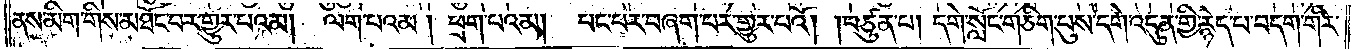ནས་མིག་གིས་མཐོང་བར་གྱུར་པའམ། ལག་པའམ། ཕྲག་པའམ། པང་པར་བཞག་པར་གྱུར་པའོ། །བཙུན་པ། དགེ་སློང་གཅིག་པུས་དགེ་འདུན་གྱི་རྙེད་པ་བདག་གིར་
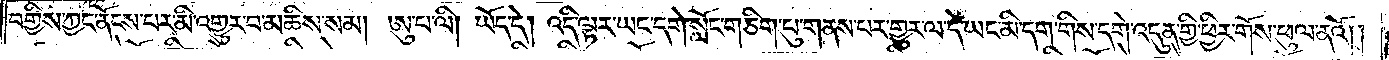བགྱིས་ཀྱང་ནོངས་པར་མི་འགྱུར་བ་མཆིས་སམ། ཨུ་པ་ལི། ཡོད་དེ། འདི་ལྟར་ཡང་དགེ་སློང་གཅིག་པུ་གནས་པར་གྱུར་ལ་དེ་ཡང་མི་དག་གིས་དགེ་འདུན་གྱི་ཕྱིར་གོས་ཕུལ་ནའོ། །
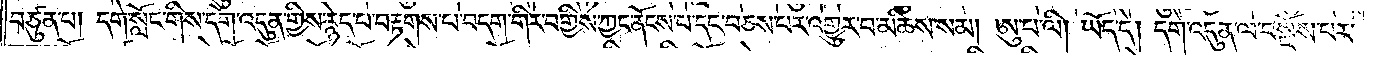བཙུན་པ། དགེ་སློང་གིས་དགེ་འདུན་གྱིས་རྙེད་པ་བརྟགས་པ་བདག་གིར་བགྱིས་ཀྱང་ནོངས་པ་དང་བཅས་པར་འགྱུར་བ་མཆིས་སམ། ཨུ་པ་ལི། ཡོད་དེ། དགེ་འདུན་ལ་བསྔོས་པར་
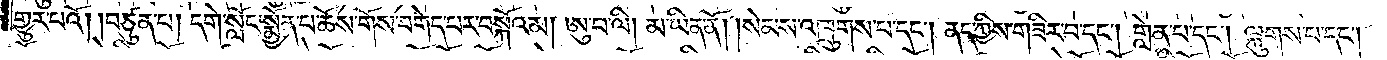གྱུར་པའོ། །བཙུན་པ། དགེ་སློང་སྨྱོན་པ་ཆོས་གོས་བགེད་པར་བསྐོའམ། ཨུ་པ་ལི། མ་ཡིན་ནོ། །སེམས་འཁྲུགས་པ་དང༌། ནད་ཀྱིས་གཟིར་བ་དང༌། གླེན་པ་དང༌། ལྐུགས་པ་དང༌།
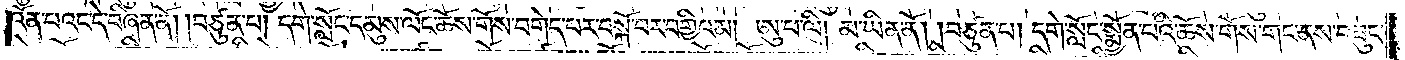འོན་པའང་དེ་བཞིན་ནོ། །བཙུན་པ། དགེ་སློང་དམུས་ལོང་ཆོས་གོས་བགེད་པར་བསྐོ་བར་བགྱིའམ། ཨུ་པ་ལི། མ་ཡིན་ནོ། །བཙུན་པ། དགེ་སློང་སྨྱོན་པའི་ཆོས་གོས་གང་ནས་བཟུང་
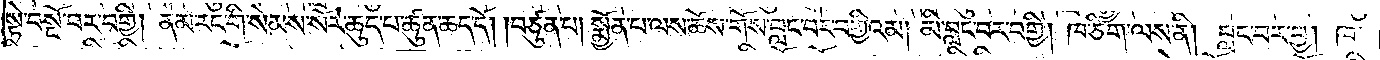སྟེ་བསྔོ་བར་བགྱི། ནམ་རང་གི་སེམས་སོར་ཆུད་པ་ཚུན་ཆད་དོ། །བཙུན་པ། སྨྱོན་པ་ལས་ཆོས་གོས་བླང་བར་བགྱིའམ། མི་བླང་བར་བགྱི། ཁ་ཅིག་ལས་ནི། བླང་བར་བྱ། ཁ་
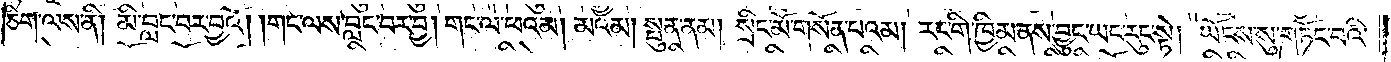ཅིག་ལས་ནི། མི་བླང་བར་བྱའོ། །གང་ལས་བླང་བར་བྱ། གང་ལ་ཕའམ། མའམ། སྤུན་ནམ། སྲིང་མོ་གསོན་པའམ། རང་གི་ཁྱིམ་ནས་བྱུང་ཡང་རུང་སྟེ། ཡོངས་སུ་གཏོང་བའི་
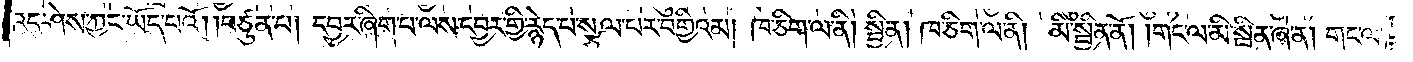འདུ་ཤེས་ཀྱང་ཡོད་པའོ། །བཙུན་པ། དབྱར་ཞིག་པ་ལས་དབྱར་གྱི་རྙེད་པ་སྩལ་པར་བགྱིའམ། ཁ་ཅིག་ལ་ནི། སྦྱིན། ཁ་ཅིག་ལ་ནི། མི་སྦྱིན་ནོ། །གང་ལ་མི་སྦྱིན་ཞེ་ན། གང་ལ་
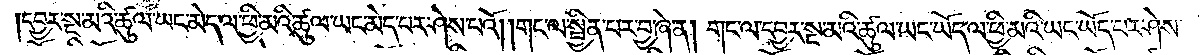།དབྱར་སྔ་མའི་ཚུལ་ཡང་མེད་ལ་ཕྱི་མའི་ཚུལ་ཡང་མེད་པར་ཤེས་པའོ། །གང་ལ་སྦྱིན་པར་བྱ་ཞེ་ན། གང་ལ་དབྱར་སྔ་མའི་ཚུལ་ཡང་ཡོད་ལ་ཕྱི་མའི་ཡང་ཡོད་པར་ཤེས་
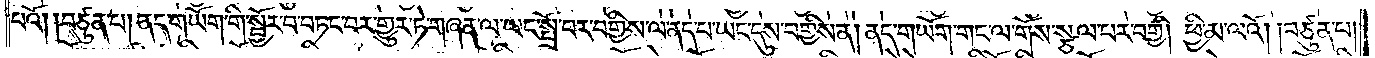པའོ། །བཙུན་པ། ནད་གཡོག་གི་སྦྱོར་བ་བཏང་བར་གྱུར་ཏེ་གཞན་ལ་ཡང་སྤྲོ་བར་བགྱིས་ལ་ནད་པ་ཡང་དུས་བགྱིས་ན། ནད་གཡོག་གང་ལ་གོས་སྩལ་པར་བགྱི། ཕྱི་མ་ལའོ། །བཙུན་པ།
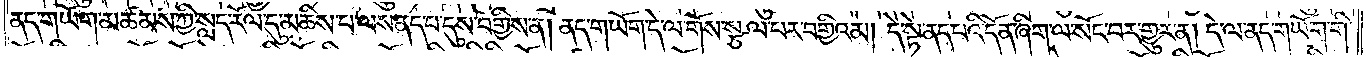ནད་གཡོག་མཚམས་ཀྱི་སླད་རོལ་དུ་མཆིས་པ་ལས་ནད་པ་དུས་བགྱིས་ན། ནད་གཡོག་དེ་ལ་གོས་སྩལ་པར་བགྱིའམ། དེ་སྟེ་ནད་པའི་དོན་ཞིག་ལ་སོང་བར་གྱུར་ན། དེ་ལ་ནད་གཡོག་གི་
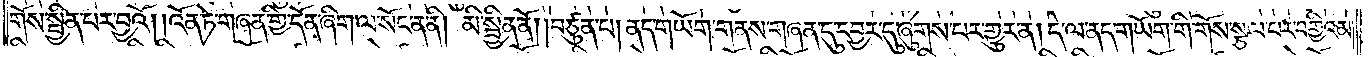གོས་སྦྱིན་པར་བྱའོ། །འོན་ཏེ་གཞན་གྱི་དོན་ཞིག་ལ་སོང་ན་ནི། མི་སྦྱིན་ནོ། །བཙུན་པ། ནད་གཡོག་གནས་གཞན་དུ་དབྱར་དུ་ཞུགས་པར་གྱུར་ན། དེ་ལ་ནད་གཡོག་གི་གོས་སྩལ་པར་བགྱིའམ།
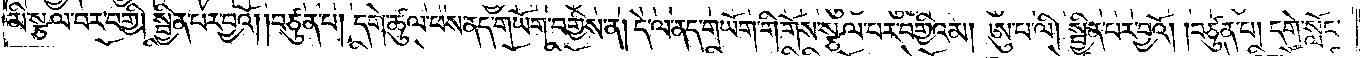མི་སྩལ་བར་བགྱི། སྦྱིན་པར་བྱའོ། །བཙུན་པ། དགེ་ཚུལ་ཕས་ནད་གཡོག་བགྱིས་ན། དེ་ལ་ནད་གཡོག་གི་གོས་སྩལ་པར་བགྱིའམ། ཨུ་པ་ལི། སྦྱིན་པར་བྱའོ། །བཙུན་པ། དགེ་སློང་
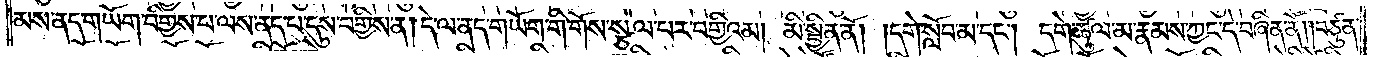མས་ནད་གཡོག་བགྱིས་པ་ལས་ནད་པ་དུས་བགྱིས་ན། དེ་ལ་ནད་གཡོག་གི་གོས་སྩལ་པར་བགྱིའམ། མི་སྦྱིན་ནོ། །དགེ་སློབ་མ་དང༌། དགེ་ཚུལ་མ་རྣམས་ཀྱང་དེ་བཞིན་ནོ། །བཙུན་
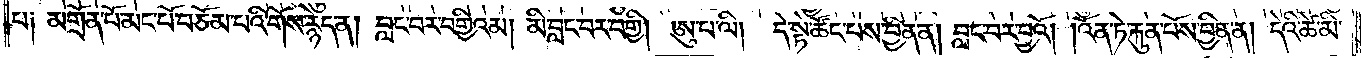པ༑ མགྲོན་པོ་མང་པོ་བཅོམ་པའི་གོས་རྙེད་ན། བླང་བར་བགྱིའམ། མི་བླང་བར་བགྱི། ཨུ་པ་ལི། དེ་སྟེ་ཚོང་པས་བྱིན་ན། བླང་བར་བྱའོ། །འོན་ཏེ་རྐུན་པོས་བྱིན་ན། དེའི་ཚེ་མི་
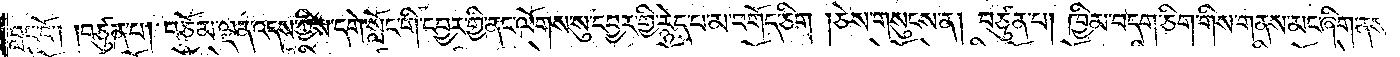བླང་ངོ༌། །བཙུན་པ། བཅོམ་ལྡན་འདས་ཀྱིས་དགེ་སློང་གི་དབྱར་གྱི་ནང་ལོགས་སུ་དབྱར་གྱི་རྙེད་པ་མ་བགོད་ཅིག །ཅེས་གསུངས་ན། བཙུན་པ། ཁྱིམ་བདག་ཅིག་གིས་གནས་མང་ཞིག་ནས་
